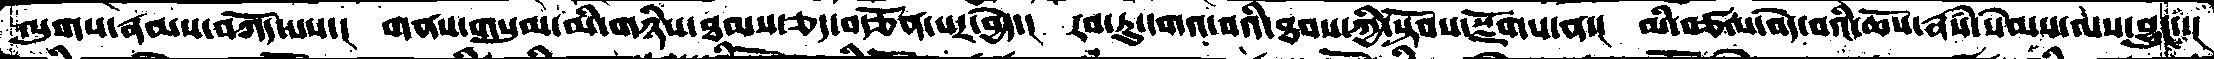ལུགས་རྣམས་བཀོད་པས་།  གནས་གསུམ་མི་གཉིས་ཐམས་ཅད་བརྩོན་པར་བྱེད་།  རབ་ཏུ་དགའ་བའི་ཐབས་ཀྱི་སྟོབས་སྫོགས་ན་།  མི་བཙལ་བདེ་བའི་ཆོས་རྣཾས་སེམས་ལས་བྱུང་་།
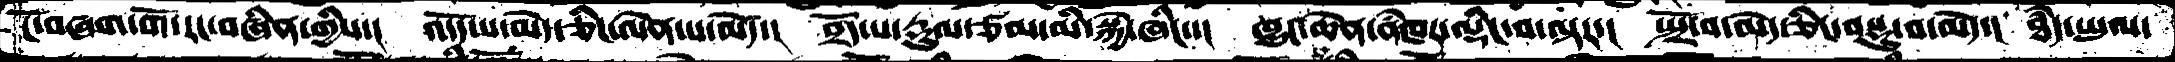ངོ་བཞག་གོ་རང་བཞིན་གྱིས་།   འདོད་པ་མེད་ཅིང་ལེན་པ་མཛོད་།   བྲོད་པ་རྡུལ་ཙམ་མི་སྐྱེ་ཞིང་།  ཁྱུང་ཆེན་ནཾཁར་ལྡིང་བ་ལྟར་།  སྤྲོ་བ་མེད་ཅིང་བསྡུ་བ་མེད་།  ཐཾད་ཡུལ་
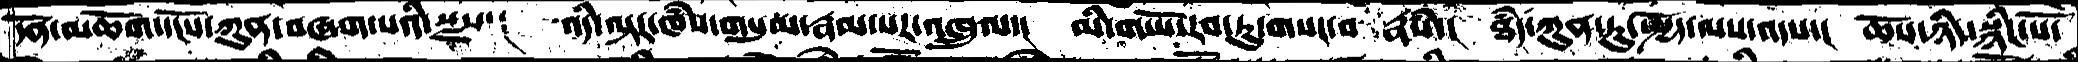དོན་མཆོག་དངོས་ཀུན་བཞག་པའི་སྫས་།  འདི་ལྟར་ཁཾས་གསུམ་རྣམ་པར་འཁྲུལ་།  མི་གཡོ་རབ་ཏུ་གསང་བ་རྣཾས་།  ཐཾད་ཀུན་ཏུ་སྤྱོད་ལས་འདས་།  ཆོས་ཉིད་སྙིང་པོ་
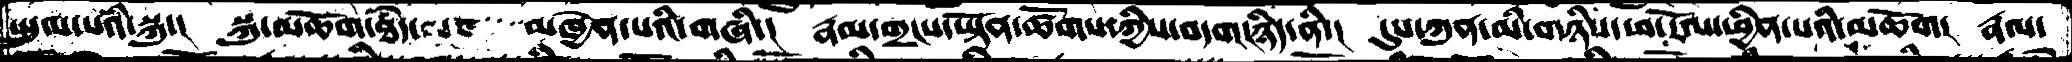སྤྲུལ་པའི་སྐུ་།  སྐུ་མཆོག་ཐཾད་ལ་  མཁྱེན་པའི་གཞི་།  རྣམ་གྲངས་ཡྟོན་ཚོགས་ཀྱིས་བདག་ཉིད་ནི་།  དུས་ཀུན་མི་གཉིས་ཕ་རོལ་ཕྱིན་པའི་མཆོག། རྣལ་
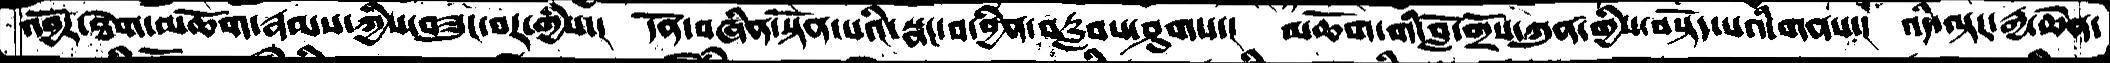འབྱོར་ཐོག་མཆོག་རྣམས་ཀྱིས་བཟུང་བར་གྱིས་།  དོན་བཞིན་སྟོན་པའི་སྣང་བ་བྱིན་བརླབས་ཤུགས་།  མཆོག་གི་བློ་གྲོས་ཀུན་གྱིས་བསྟོད་པའི་གནས་།  འདི་ལྟར་རྒྱ་ཆེན་
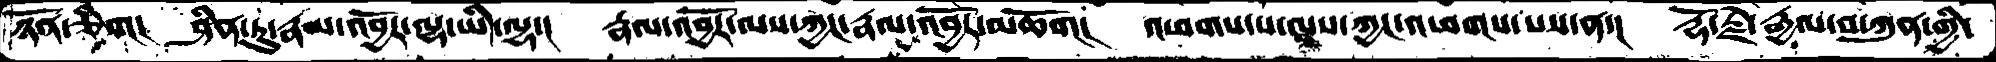ཉོན་ཅིག།  ཤིན་ཏུ་རྣམ་འབྱོར་ལྷ་ཡི་ལྷ་།  རྣལ་འབྱོར་ལས་ཀྱང་རྣལ་འབྱོར་མཆོག།   འཕགས་པ་ལས་ཀྱང་འཕགས་པས་ན་།  རྡོ་རྗེ་རྒྱལ་བ་ཀུན་གྱི་
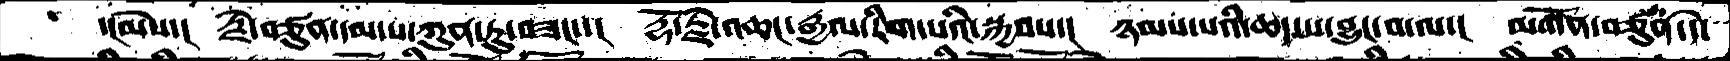་།མེས་།  རྗེ་བཙུན་དམ་པ་ཀུན་ཏུ་བཟང་།  རྡོ་རྗེ་འཆང་རྒྱལ་རིག་པའི་སྐྱབས་།  ཉམས་པའི་ཆད་པ་བྱུང་བ་ལ་།  མགོན་བཙུན་དེ་
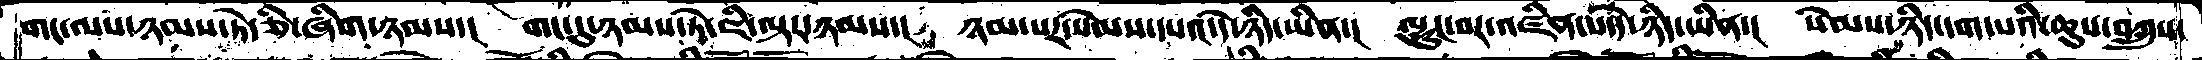གང་ལས་ཉམས་ཏེ་ཅི་ཞིག་ཉམས་།   གང་དུ་ཉམས་ཏེ་ཇི་ལྟར་ཉམས་།  ཉམ་པར་སེམས་དཔའ་དེ་ཉིད་ཡིན་།  ལྷུང་བར་འཛིན་པ་དེ་ཉིད་ཡིན་།  སེམས་ཉིད་དག་པའི་ཆུས་བཀྲུས་
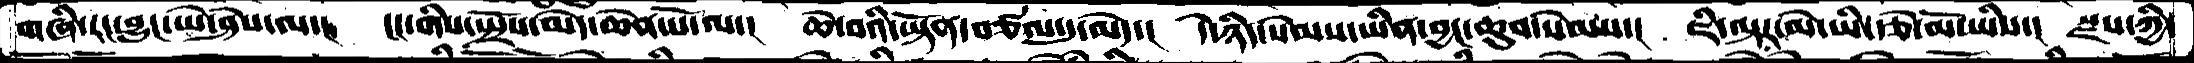གཞི་རང་བྱུང་ཡེ་ཤེས་ལ་།  ངང་གིས་སྤྲོས་མེད་ཆེན་པོ་ལ་།  ཆེ་བའི་ཡྟོན་བཙལ་དུ་མེད་།  དེ་ཉིད་སེམས་ཡིན་བྱང་ཆུབ་སེམས་།  ཇི་ལྟར་མེ་ཡི་རྩེ་མོ་ཡིས་།  སྫས་ཀྱི་
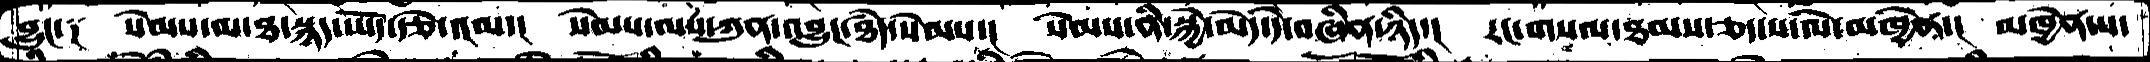བྱུང༑  སེམས་མ་ཐ་སྙད་ཡོད་རྩེ་འམ་།  སེམས་ལས་ཀུན་འབྱུང་ཐཾད་སེམས་།  སེམས་ནི་སྐྱེ་མེད་དེ་བཞིན་ཉིད་།  རང་གསལ་ཐམས་ཅད་ས་ལེ་མཁྱེན་།  མཁྱེན་པ་
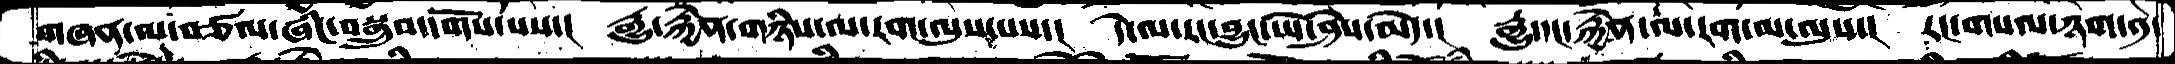གཞན་མ་བཙལ་ཞིང་བསྒྲུབ་དགོས་པས་།  རྒྱུ་རྐྱེན་གཉིས་ལ་རག་ལུས་པས་།  དེ་ལ་རང་བྱུང་ཡེ་ཤེས་མེད་།  རྒྱུ་དང་རྐྱེན་ལ་རག་་མ་ལུས་།  རང་གསལ་ཉག་༡་
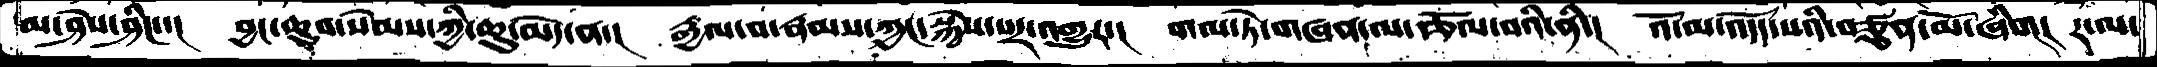མ་ཤེས་ཤིང་་།  བྱང་ཆུབ་སེམས་ཀྱི་ཆུ་མེད་ན་།  རྒྱལ་བ་རྣམས་ཀྱང་སྐྱེས་པར་འགྱུར་།  གལ་ཏེ་གཞན་ལ་རྩོལ་བའི་ནི་།  འོ་མ་འདོད་པའི་བཙུན་མོ་ཞིག།  ར་ལ་
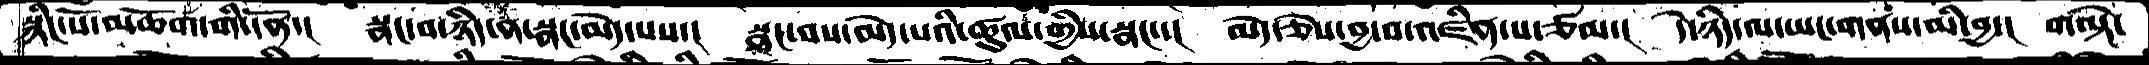སྙིང་པོ་མཆོག་གི་དོན་།  སྣང་བ་ཉིད་ན་སྣང་མེད་པས་།  སྣང་བས་མེད་པའི་ཚུལ་གྱིས་སྣང་་།  མེད་ཅེས་བྱ་བ་འཛིན་པ་ཙམ་།  དེ་ཉིད་ལ་ཡང་གནས་མི་བྱ་། གལྟེ་
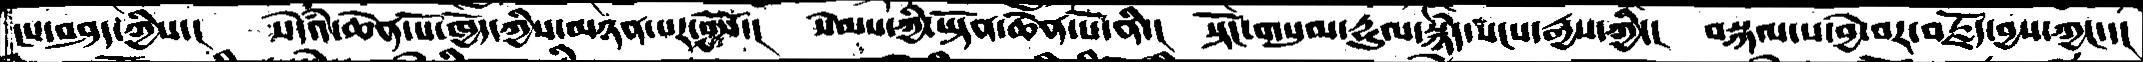ངས་བཤད་ཀྱིས་།  སེདཾའ་ཆེན་པོ་ཁྱོད་ཀྱིས་མཉན་པར་བྱའོ་།  སེམས་ཀྱི་ཡྟོན་ཆེན་པོ་ནི་།  སྟོང་གསུམ་རྡུལ་སྙེད་སངས་རྒྱས་ཀྱི་།  བསྐལ་པ་བྱེ་བར་བརྗོད་བྱས་ཀྱང་་།
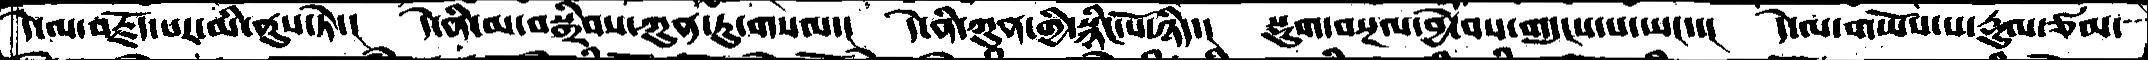དེ་ལ་བརྗོད་པར་མི་ནུས་ཏེ་།  དེ་ནི་མ་བསྒྲིབས་ཀུན་ཏུ་གསལ་།  དེ་ནི་ཀུན་གྱི་སྙིང་པོ་ཉིད་།  སྡུག་བསྔལ་བྱེ་བས་གདུངས་པ་ཡང་་།  དེ་ལ་གཡོས་པ་རྡུལ་ཙམ་
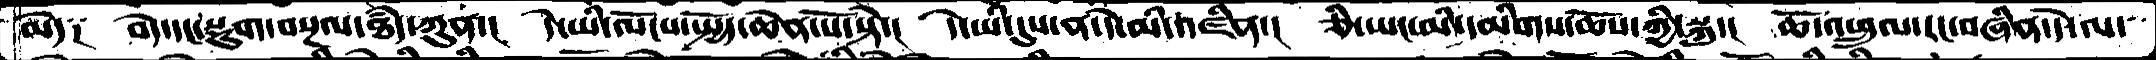མེད༑  བདེ་དང་སྡུག་བསྔལ་ཐཾད་ཀུན་།  དེ་ཡི་ལོངས་སྤྱོད་ཆེན་པོ་སྟེ་།  དེ་ཡི་དུས་ན་དེ་མི་འཛིན་།  ཅི་ཡང་མི་དམིགས་ཆོས་ཀྱི་སྐུ་།  ཆོ་འཕྲུལ་རང་བཞིན་དེེ་ལ་
